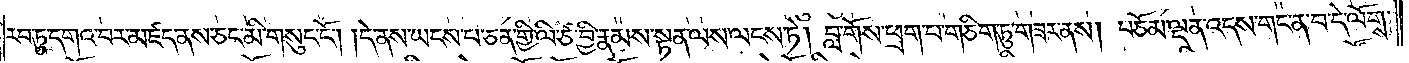རབ་ཏུ་དགའ་བར་མཛད་ནས་ཅང་མི་གསུང་ངོ༌། །དེ་ནས་ཡངས་པ་ཅན་གྱི་ལི་ཙ་བྱི་རྣམས་སྟན་ལས་ལངས་ཏེ། བླ་གོས་ཕྲག་པ་གཅིག་ཏུ་གཟར་ནས། བཅོམ་ལྡན་འདས་གང་ན་བ་དེ་ལོགས་
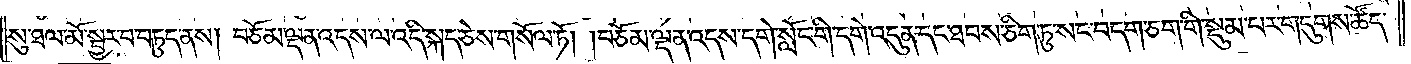སུ་ཐལ་མོ་སྦྱར་བ་བཏུད་ནས། བཅོམ་ལྡན་འདས་ལ་འདི་སྐད་ཅེས་གསོལ་ཏོ། །བཅོམ་ལྡན་འདས་དགེ་སློང་གི་དགེ་འདུན་དང་ཐབས་ཅིག་ཏུ་སང་བདག་ཅག་གི་སྡུམ་པར་གདུགས་ཚོད་
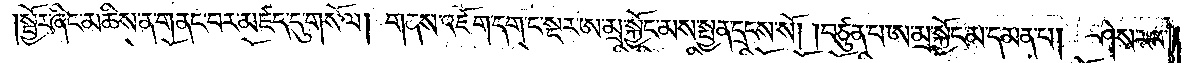སྦྱོར་ཞིང་མཆིས་ན་གནང་བར་མཛད་དུ་གསོལ། གནས་འཇོག་དག་ང་སྔར་ཨ་མྲ་སྐྱོང་མས་སྤྱན་དྲངས་སོ། །བཙུན་པ་ཨ་མྲ་སྐྱོང་མ་དམན་པ། ཤེས་རབ་
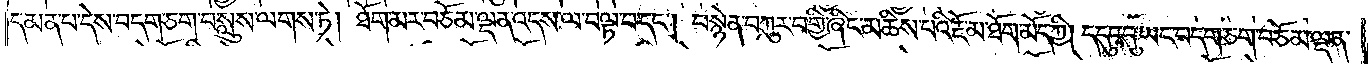དམན་པ་དེས་བདག་ཅག་བསླུས་ལགས་ཏེ། ཐོག་མར་བཅོམ་ལྡན་འདས་ལ་བལྟ་བ་དང༌། བསྙེན་བཀུར་བགྱི་ཞིང་མཆིས་པའི་རྔོ་མ་ཐོག་མོད་ཀྱི། ད་དུང་དུ་ཡང་བདག་ཅག་བཅོམ་ལྡན་
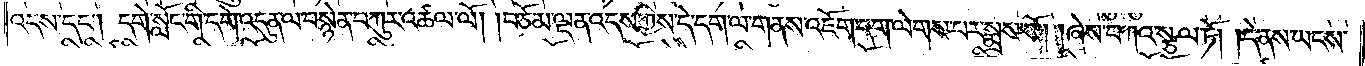འདས་དང༌། དགེ་སློང་གི་དགེ་འདུན་ལ་བསྙེན་བཀུར་འཚལ་ལོ། །བཅོམ་ལྡན་འདས་ཀྱིས་དེ་དག་ལ་གནས་འཇོག་དག་ལེགས་པར་སྨྲས་སོ། །ཞེས་བཀའ་སྩལ་ཏོ། །དེ་ནས་ཡངས་
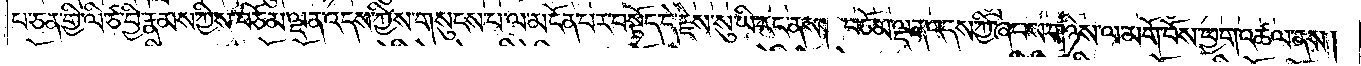པ་ཅན་གྱི་ལི་ཙ་བྱི་རྣམས་ཀྱིས་བཅོམ་ལྡན་འདས་ཀྱིས་གསུངས་པ་ལ་མངོན་པར་བསྟོད་དེ་རྗེས་སུ་ཡི་རང་ནས། བཅོམ་ལྡན་འདས་ཀྱི་ཞབས་གཉིས་ལ་མགོ་བོས་ཕྱག་འཚལ་ནས།
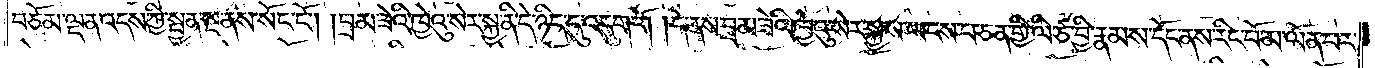བཅོམ་ལྡན་འདས་ཀྱི་སྤྱན་སྔ་ནས་སོང་ངོ༌། །བྲམ་ཟེའི་ཁྱེའུ་སེར་སྐྱ་ནི་དེ་ཉིད་དུ་འདུག་གོ། །དེ་ནས་བྲམ་ཟེའི་ཁྱེའུ་སེར་སྐྱས་ཡངས་པ་ཅན་གྱི་ལི་ཙ་བྱི་རྣམས་དོང་ནས་རིང་པོ་མ་ལོན་པར་
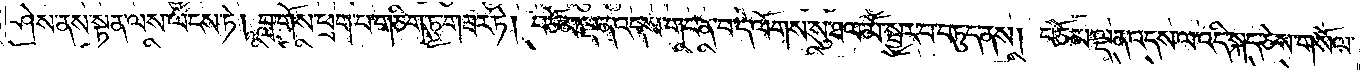ཤེས་ནས་སྟན་ལས་ལངས་ཏེ། བླ་གོས་ཕྲག་པ་གཅིག་ཏུ་གཟར་ཏེ། བཅོམ་ལྡན་འདས་གང་ན་བ་དེ་ལོགས་སུ་ཐལ་མོ་སྦྱར་བ་བཏུད་ནས། བཅོམ་ལྡན་འདས་ལ་འདི་སྐད་ཅེས་གསོལ་
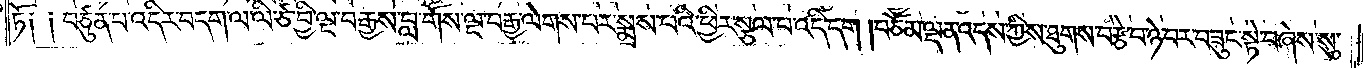ཏོ༑ ༑བཙུན་པ་འདིར་བདག་ལ་ལི་ཙ་བྱི་ལྔ་བརྒྱས་བླ་གོས་ལྔ་བརྒྱ་ལེགས་པར་སྨྲས་པའི་ཕྱིར་སྩལ་བ་འདི་དག །བཅོམ་ལྡན་འདས་ཀྱིས་ཐུགས་བརྩེ་བ་ཉེ་བ་བཟུང་སྟེ་བཞེས་སུ་
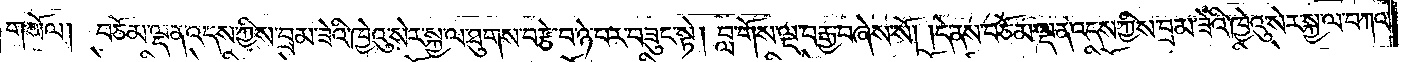གསོལ། བཅོམ་ལྡན་འདས་ཀྱིས་བྲམ་ཟེའི་ཁྱེའུ་སེར་སྐྱ་ལ་ཐུགས་བརྩེ་བ་ཉེ་བར་བཟུང་སྟེ། བླ་གོས་ལྔ་བརྒྱ་བཞེས་སོ། །དེ་ནས་བཅོམ་ལྡན་འདས་ཀྱིས་བྲམ་ཟེའི་ཁྱེའུ་སེར་སྐྱ་ལ་བཀའ་
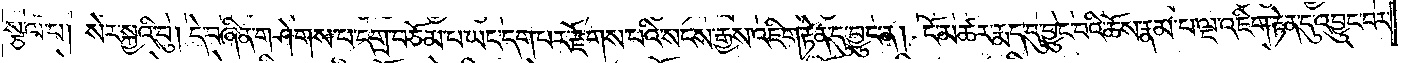སྩལ་པ། སེར་སྐྱའི་བུ། དེ་བཞིན་གཤེགས་པ་དགྲ་བཅོམ་པ་ཡང་དག་པར་རྫོགས་པའི་སངས་རྒྱས་འཇིག་རྟེན་དུ་བྱུང་ན། ངོ་མཚར་རྨད་དུ་བྱུང་བའི་ཆོས་རྣམ་པ་ལྔ་འཇིག་རྟེན་དུ་འབྱུང་བར་
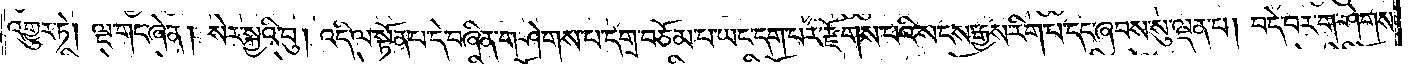འགྱུར་ཏེ། ལྔ་གང་ཞེ་ན། སེར་སྐྱའི་བུ། འདི་ལ་སྟོན་པ་དེ་བཞིན་གཤེགས་པ་དགྲ་བཅོམ་པ་ཡང་དག་པར་རྫོགས་པའི་སངས་རྒྱས་རིག་པ་དང་ཞབས་སུ་ལྡན་པ། བདེ་བར་གཤེགས་
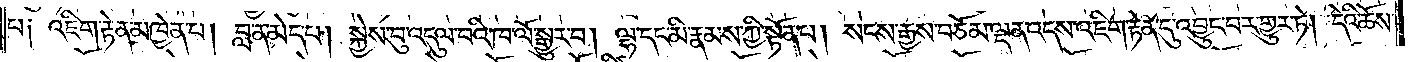པ༑ འཇིག་རྟེན་མཁྱེན་པ། བླ་ན་མེད་པ། སྐྱེས་བུ་འདུལ་བའི་ཁ་ལོ་སྒྱུར་བ། ལྷ་དང་མི་རྣམས་ཀྱི་སྟོན་པ། སངས་རྒྱས་བཅོམ་ལྡན་འདས་འཇིག་རྟེན་དུ་འབྱུང་བར་གྱུར་ཏེ། དེའི་ཆོས་
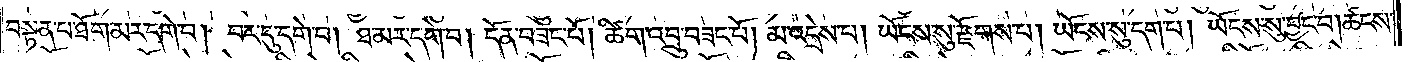བསྟན་པ་ཐོག་མར་དགེ་བ། བར་དུ་དགེ་བ། ཐ་མར་དགེ་བ། དོན་བཟང་པོ། ཚིག་འབྲུ་བཟང་པོ། མ་འདྲེས་པ། ཡོངས་སུ་རྫོགས་པ། ཡོངས་སུ་དག་པ། ཡོངས་སུ་བྱང་བ། ཚངས་
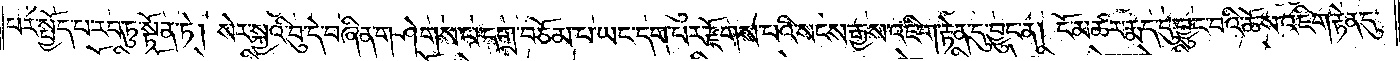པར་སྤྱོད་པ་རབ་ཏུ་སྟོན་ཏེ། སེར་སྐྱའི་བུ་དེ་བཞིན་གཤེགས་པ་དགྲ་བཅོམ་པ་ཡང་དག་པར་རྫོགས་པའི་སངས་རྒྱས་འཇིག་རྟེན་དུ་བྱུང་ན། ངོ་མཚར་རྨད་དུ་བྱུང་བའི་ཆོས་འཇིག་རྟེན་དུ་
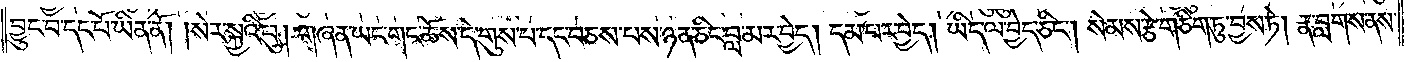བྱུང་བ་དང་པོ་ཡིན་ནོ། །སེར་སྐྱའི་བུ། གཞན་ཡང་གང་ཆོས་དེ་གུས་པ་དང་བཅས་པས་ཉན་ཅིང་བླ་མར་བྱེད། དམ་པར་བྱེད། ཡིད་ལ་བྱེད་ཅིང༌། སེམས་རྩེ་གཅིག་ཏུ་བྱས་ཏེ། རྣ་བླགས་ནས་
